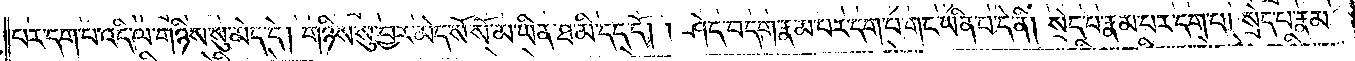པར་དག་པ་འདི་ལ་གཉིས་སུ་མེད་དེ། གཉིས་སུ་བྱར་མེད་སོ་སོ་མ་ཡིན་ཐ་མི་དད་དོ། །ཤེད་བདག་རྣམ་པར་དག་པ་གང་ཡིན་པ་དེ་ནི། སྲེད་པ་རྣམ་པར་དག་པ། སྲེད་པ་རྣམ་
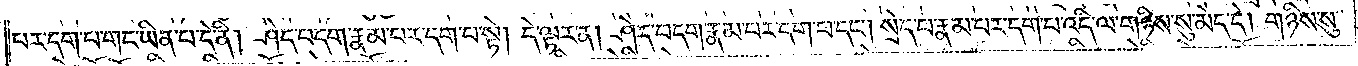པར་དག་པ་གང་ཡིན་པ་དེ་ནི། ཤེད་བདག་རྣམ་པར་དག་པ་སྟེ། དེ་ལྟར་ན། ཤེད་བདག་རྣམ་པར་དག་པ་དང༌། སྲེད་པ་རྣམ་པར་དག་པ་འདི་ལ་གཉིས་སུ་མེད་དེ། གཉིས་སུ་
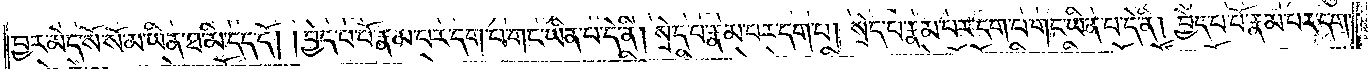བྱར་མེད་སོ་སོ་མ་ཡིན་ཐ་མི་དད་དོ། །བྱེད་པ་པོ་རྣམ་པར་དག་པ་གང་ཡིན་པ་དེ་ནི། སྲེད་པ་རྣམ་པར་དག་པ། སྲེད་པ་རྣམ་པར་དག་པ་གང་ཡིན་པ་དེ་ནི། བྱེད་པ་པོ་རྣམ་པར་དག་
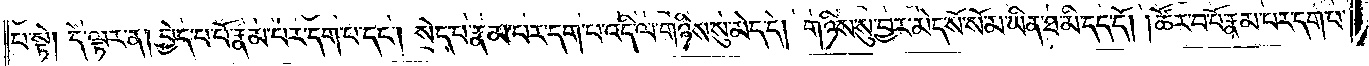པ་སྟེ། དེ་ལྟར་ན། བྱེད་པ་པོ་རྣམ་པར་དག་པ་དང༌། སྲེད་པ་རྣམ་པར་དག་པ་འདི་ལ་གཉིས་སུ་མེད་དེ། གཉིས་སུ་བྱར་མེད་སོ་སོ་མ་ཡིན་ཐ་མི་དད་དོ། །ཚོར་བ་པོ་རྣམ་པར་དག་པ་
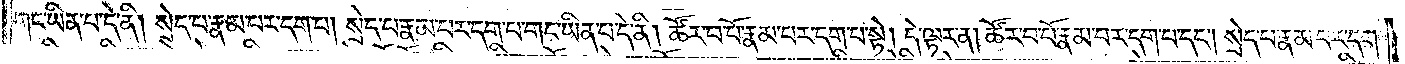གང་ཡིན་པ་དེ་ནི། སྲེད་པ་རྣམ་པར་དག་པ། སྲེད་པ་རྣམ་པར་དག་པ་གང་ཡིན་པ་དེ་ནི། ཚོར་བ་པོ་རྣམ་པར་དག་པ་སྟེ། དེ་ལྟར་ན། ཚོར་བ་པོ་རྣམ་པར་དག་པ་དང༌། སྲེད་པ་རྣམ་པར་དག་
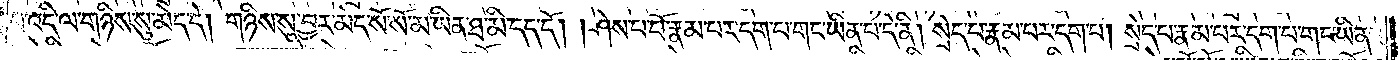པ་འདི་ལ་གཉིས་སུ་མེད་དེ། གཉིས་སུ་བྱར་མེད་སོ་སོ་མ་ཡིན་ཐ་མི་དད་དོ། །ཤེས་པ་པོ་རྣམ་པར་དག་པ་གང་ཡིན་པ་དེ་ནི། སྲེད་པ་རྣམ་པར་དག་པ། སྲེད་པ་རྣམ་པར་དག་པ་གང་ཡིན་
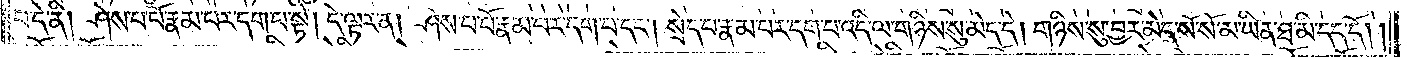པ་དེ་ནི། ཤེས་པ་པོ་རྣམ་པར་དག་པ་སྟེ། དེ་ལྟར་ན། ཤེས་པ་པོ་རྣམ་པར་དག་པ་དང༌། སྲེད་པ་རྣམ་པར་དག་པ་འདི་ལ་གཉིས་སུ་མེད་དེ། གཉིས་སུ་བྱར་མེད་སོ་སོ་མ་ཡིན་ཐ་མི་དད་དོ། །
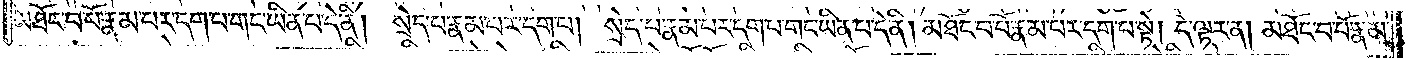མཐོང་བ་པོ་རྣམ་པར་དག་པ་གང་ཡིན་པ་དེ་ནི། སྲེད་པ་རྣམ་པར་དག་པ། སྲེད་པ་རྣམ་པར་དག་པ་གང་ཡིན་པ་དེ་ནི། མཐོང་བ་པོ་རྣམ་པར་དག་པ་སྟེ། དེ་ལྟར་ན། མཐོང་བ་པོ་རྣམ་
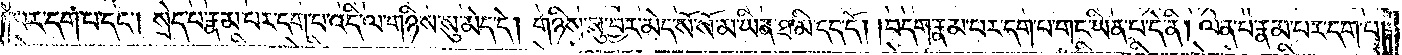པར་དག་པ་དང༌། སྲེད་པ་རྣམ་པར་དག་པ་འདི་ལ་གཉིས་སུ་མེད་དེ། གཉིས་སུ་བྱར་མེད་སོ་སོ་མ་ཡིན་ཐ་མི་དད་དོ། །བདག་རྣམ་པར་དག་པ་གང་ཡིན་པ་དེ་ནི། ལེན་པ་རྣམ་པར་དག་པ།
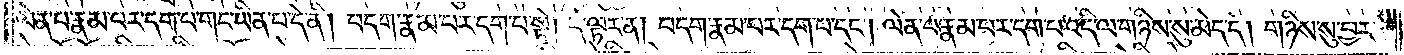ལེན་པ་རྣམ་པར་དག་པ་གང་ཡིན་པ་དེ་ནི། བདག་རྣམ་པར་དག་པ་སྟེ། དེ་ལྟར་ན། བདག་རྣམ་པར་དག་པ་དང༌། ལེན་པ་རྣམ་པར་དག་པ་འདི་ལ་གཉིས་སུ་མེད་དེ། གཉིས་སུ་བྱར་
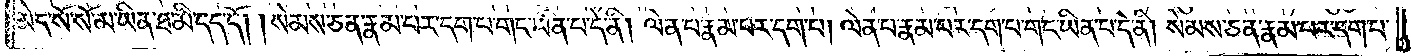མེད་སོ་སོ་མ་ཡིན་ཐ་མི་དད་དོ། །སེམས་ཅན་རྣམ་པར་དག་པ་གང་ཡིན་པ་དེ་ནི། ལེན་པ་རྣམ་པར་དག་པ། ལེན་པ་རྣམ་པར་དག་པ་གང་ཡིན་པ་དེ་ནི། སེམས་ཅན་རྣམ་པར་དག་པ་
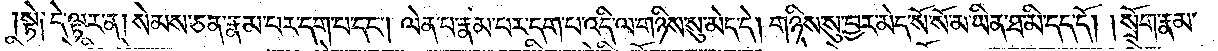སྟེ། དེ་ལྟར་ན། སེམས་ཅན་རྣམ་པར་དག་པ་དང༌། ལེན་པ་རྣམ་པར་དག་པ་འདི་ལ་གཉིས་སུ་མེད་དེ། གཉིས་སུ་བྱར་མེད་སོ་སོ་མ་ཡིན་ཐ་མི་དད་དོ། །སྲོག་རྣམ་
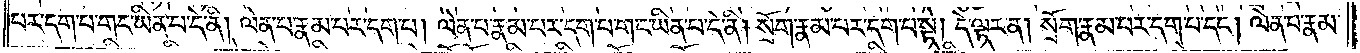པར་དག་པ་གང་ཡིན་པ་དེ་ནི། ལེན་པ་རྣམ་པར་དག་པ། ལེན་པ་རྣམ་པར་དག་པ་གང་ཡིན་པ་དེ་ནི། སྲོག་རྣམ་པར་དག་པ་སྟེ། དེ་ལྟར་ན། སྲོག་རྣམ་པར་དག་པ་དང༌། ལེན་པ་རྣམ་
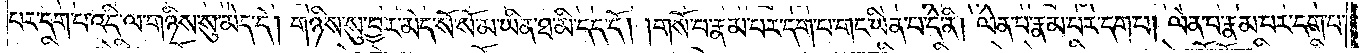པར་དག་པ་འདི་ལ་གཉིས་སུ་མེད་དེ། གཉིས་སུ་བྱར་མེད་སོ་སོ་མ་ཡིན་ཐ་མི་དད་དོ། །གསོ་བ་རྣམ་པར་དག་པ་གང་ཡིན་པ་དེ་ནི། ལེན་པ་རྣམ་པར་དག་པ། ལེན་པ་རྣམ་པར་དག་པ་
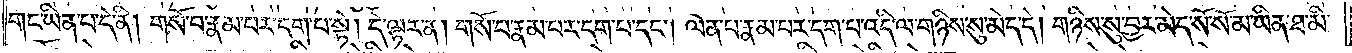གང་ཡིན་པ་དེ་ནི། གསོ་བ་རྣམ་པར་དག་པ་སྟེ། དེ་ལྟར་ན། གསོ་བ་རྣམ་པར་དག་པ་དང༌། ལེན་པ་རྣམ་པར་དག་པ་འདི་ལ་གཉིས་སུ་མེད་དེ། གཉིས་སུ་བྱར་མེད་སོ་སོ་མ་ཡིན་ཐ་མི་
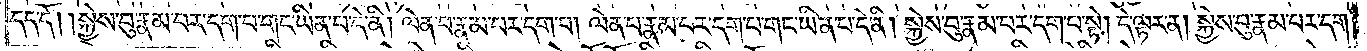དད་དོ། །སྐྱེས་བུ་རྣམ་པར་དག་པ་གང་ཡིན་པ་དེ་ནི། ལེན་པ་རྣམ་པར་དག་པ། ལེན་པ་རྣམ་པར་དག་པ་གང་ཡིན་པ་དེ་ནི། སྐྱེས་བུ་རྣམ་པར་དག་པ་སྟེ། དེ་ལྟར་ན། སྐྱེས་བུ་རྣམ་པར་དག་
